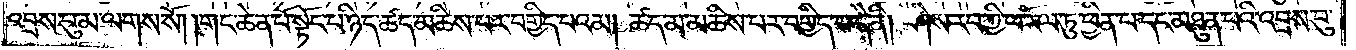འབྲས་བུ་མ་ལགས་སོ། །གང་ཆེན་པོ་སྟོང་པ་ཉིད་ཚད་མཆིས་པར་བགྱིད་པའམ། ཚད་མ་མཆིས་པར་བགྱིད་པ་དེ་ནི། ཤེས་རབ་ཀྱི་ཕ་རོལ་ཏུ་ཕྱིན་པ་དང་མཐུན་པའི་འབྲས་བུ་
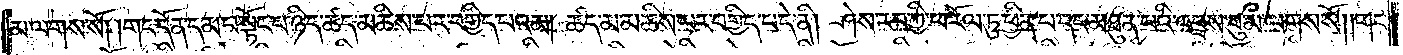མ་ལགས་སོ། །གང་དོན་དམ་པ་སྟོང་པ་ཉིད་ཚད་མཆིས་པར་བགྱིད་པའམ། ཚད་མ་མཆིས་པར་བགྱིད་པ་དེ་ནི། ཤེས་རབ་ཀྱི་ཕ་རོལ་ཏུ་ཕྱིན་པ་དང་མཐུན་པའི་འབྲས་བུ་མ་ལགས་སོ། །གང་
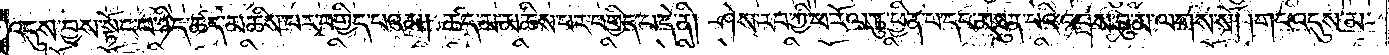འདུས་བྱས་སྟོང་པ་ཉིད་ཚད་མཆིས་པར་བགྱིད་པའམ། ཚད་མ་མཆིས་པར་བགྱིད་པ་དེ་ནི། ཤེས་རབ་ཀྱི་ཕ་རོལ་ཏུ་ཕྱིན་པ་དང་མཐུན་པའི་འབྲས་བུ་མ་ལགས་སོ། །གང་འདུས་མ་
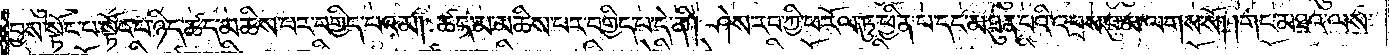བྱས་སྟོང་པ་སྟོང་པ་ཉིད་ཚད་མཆིས་པར་བགྱིད་པའམ། ཚད་མ་མཆིས་པར་བགྱིད་པ་དེ་ནི། ཤེས་རབ་ཀྱི་ཕ་རོལ་ཏུ་ཕྱིན་པ་དང་མཐུན་པའི་འབྲས་བུ་མ་ལགས་སོ། །གང་མཐའ་ལས་
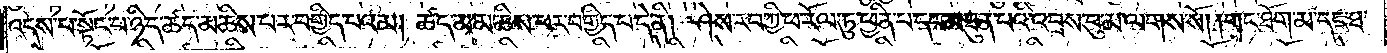འདས་པ་སྟོང་པ་ཉིད་ཚད་མཆིས་པར་བགྱིད་པའམ། ཚད་མ་མཆིས་པར་བགྱིད་པ་དེ་ནི། ཤེས་རབ་ཀྱི་ཕ་རོལ་ཏུ་ཕྱིན་པ་དང་མཐུན་པའི་འབྲས་བུ་མ་ལགས་སོ། །གང་ཐོག་མ་དང་ཐ་
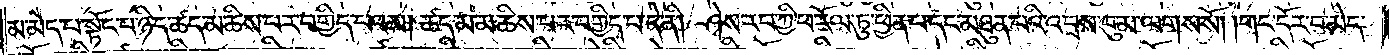མ་མེད་པ་སྟོང་པ་ཉིད་ཚད་མཆིས་པར་བགྱིད་པའམ། ཚད་མ་མཆིས་པར་བགྱིད་པ་དེ་ནི། ཤེས་རབ་ཀྱི་ཕ་རོལ་ཏུ་ཕྱིན་པ་དང་མཐུན་པའི་འབྲས་བུ་མ་ལགས་སོ། །གང་དོར་བ་མེད་
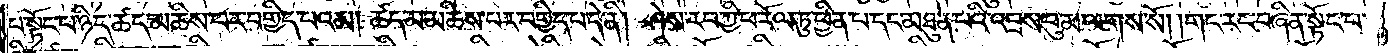པ་སྟོང་པ་ཉིད་ཚད་མཆིས་པར་བགྱིད་པའམ། ཚད་མ་མཆིས་པར་བགྱིད་པ་དེ་ནི། ཤེས་རབ་ཀྱི་ཕ་རོལ་ཏུ་ཕྱིན་པ་དང་མཐུན་པའི་འབྲས་བུ་མ་ལགས་སོ། །གང་རང་བཞིན་སྟོང་པ་
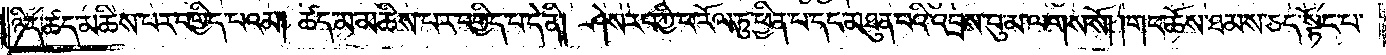ཉིད་ཚད་མཆིས་པར་བགྱིད་པའམ། ཚད་མ་མཆིས་པར་བགྱིད་པ་དེ་ནི། ཤེས་རབ་ཀྱི་ཕ་རོལ་ཏུ་ཕྱིན་པ་དང་མཐུན་པའི་འབྲས་བུ་མ་ལགས་སོ། །གང་ཆོས་ཐམས་ཅད་སྟོང་པ་
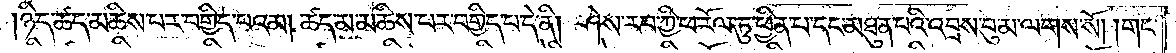ཉིད་ཚད་མཆིས་པར་བགྱིད་པའམ། ཚད་མ་མཆིས་པར་བགྱིད་པ་དེ་ནི། ཤེས་རབ་ཀྱི་ཕ་རོལ་ཏུ་ཕྱིན་པ་དང་མཐུན་པའི་འབྲས་བུ་མ་ལགས་སོ། །གང་
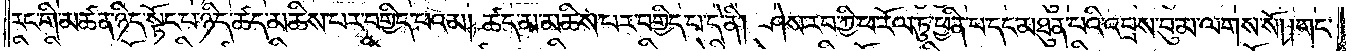རང་གི་མཚན་ཉིད་སྟོང་པ་ཉིད་ཚད་མཆིས་པར་བགྱིད་པའམ། ཚད་མ་མཆིས་པར་བགྱིད་པ་དེ་ནི། ཤེས་རབ་ཀྱི་ཕ་རོལ་ཏུ་ཕྱིན་པ་དང་མཐུན་པའི་འབྲས་བུ་མ་ལགས་སོ། །གང་
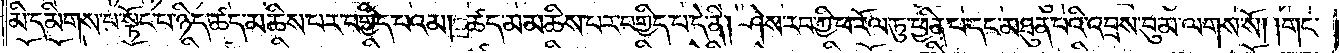མི་དམིགས་པ་སྟོང་པ་ཉིད་ཚད་མཆིས་པར་བགྱིད་པའམ། ཚད་མ་མཆིས་པར་བགྱིད་པ་དེ་ནི། ཤེས་རབ་ཀྱི་ཕ་རོལ་ཏུ་ཕྱིན་པ་དང་མཐུན་པའི་འབྲས་བུ་མ་ལགས་སོ། །གང་
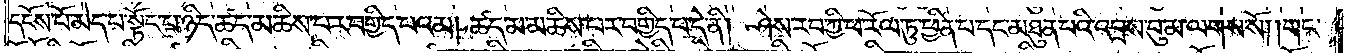དངོས་པོ་མེད་པ་སྟོང་པ་ཉིད་ཚད་མཆིས་པར་བགྱིད་པའམ། ཚད་མ་མཆིས་པར་བགྱིད་པ་དེ་ནི། ཤེས་རབ་ཀྱི་ཕ་རོལ་ཏུ་ཕྱིན་པ་དང་མཐུན་པའི་འབྲས་བུ་མ་ལགས་སོ། །གང་
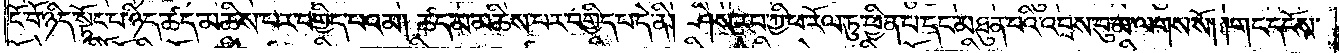ངོ་བོ་ཉིད་སྟོང་པ་ཉིད་ཚད་མཆིས་པར་བགྱིད་པའམ། ཚད་མ་མཆིས་པར་བགྱིད་པ་དེ་ནི། ཤེས་རབ་ཀྱི་ཕ་རོལ་ཏུ་ཕྱིན་པ་དང་མཐུན་པའི་འབྲས་བུ་མ་ལགས་སོ། །གང་དངོས་
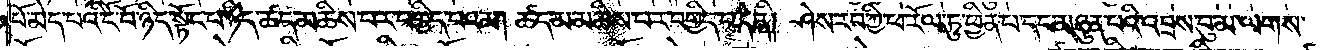པོ་མེད་པའི་ངོ་བོ་ཉིད་སྟོང་པ་ཉིད་ཚད་མཆིས་པར་བགྱིད་པའམ། ཚད་མ་མཆིས་པར་བགྱིད་པ་དེ་ནི། ཤེས་རབ་ཀྱི་ཕ་རོལ་ཏུ་ཕྱིན་པ་དང་མཐུན་པའི་འབྲས་བུ་མ་ལགས་
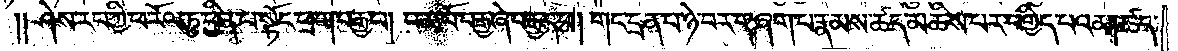སོ༑༑ ༎ཤེས་རབ་ཀྱི་ཕ་རོལ་ཏུ་ཕྱིན་པ་སྟོང་ཕྲག་བརྒྱ་པ། །བམ་པོ་བརྒྱ་ཞེ་བརྒྱད་པ། །གང་དྲན་པ་ཉེ་བར་གཞག་པ་རྣམས་ཚད་མཆིས་པར་བགྱིད་པའམ། ཚད་
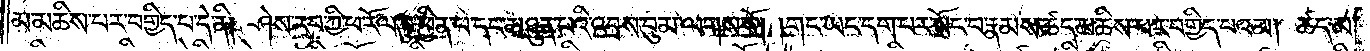མ་མཆིས་པར་བགྱིད་པ་དེ་ནི། ཤེས་རབ་ཀྱི་ཕ་རོལ་ཏུ་ཕྱིན་པ་དང་མཐུན་པའི་འབྲས་བུ་མ་ལགས་སོ། །གང་ཡང་དག་པར་སྤོང་བ་རྣམས་ཚད་མཆིས་པར་བགྱིད་པའམ། ཚད་མ་
